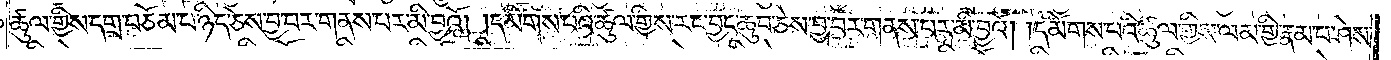ཚུལ་གྱིས་དགྲ་བཅོམ་པ་ཉིད་ཅེས་བྱ་བར་གནས་པར་མི་བྱའོ། །དམིགས་པའི་ཚུལ་གྱིས་རང་བྱང་ཆུབ་ཅེས་བྱ་བར་གནས་པར་མི་བྱའོ། །དམིགས་པའི་ཚུལ་གྱིས་ལམ་གྱི་རྣམ་པ་ཤེས་
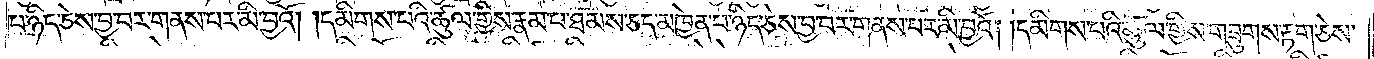པ་ཉིད་ཅེས་བྱ་བར་གནས་པར་མི་བྱའོ། །དམིགས་པའི་ཚུལ་གྱིས་རྣམ་པ་ཐམས་ཅད་མཁྱེན་པ་ཉིད་ཅེས་བྱ་བར་གནས་པར་མི་བྱའོ། །དམིགས་པའི་ཚུལ་གྱིས་གཟུགས་རྟག་ཅེས་
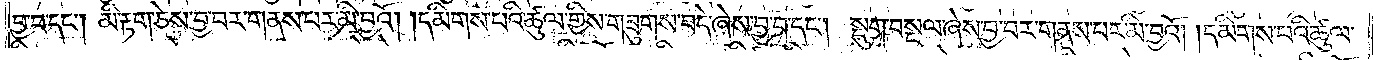བྱ་བ་དང༌། མི་རྟག་ཅེས་བྱ་བར་གནས་པར་མི་བྱའོ། །དམིགས་པའི་ཚུལ་གྱིས་གཟུགས་བདེ་ཞེས་བྱ་བ་དང༌། སྡུག་བསྔལ་ཞེས་བྱ་བར་གནས་པར་མི་བྱའོ། །དམིགས་པའི་ཚུལ་
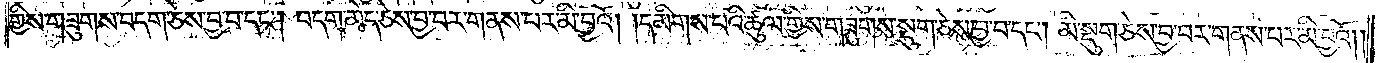གྱིས་གཟུགས་བདག་ཅེས་བྱ་བ་དང༌། བདག་མེད་ཅེས་བྱ་བར་གནས་པར་མི་བྱའོ། །དམིགས་པའི་ཚུལ་གྱིས་གཟུགས་སྡུག་ཅེས་བྱ་བ་དང༌། མི་སྡུག་ཅེས་བྱ་བར་གནས་པར་མི་བྱའོ། །
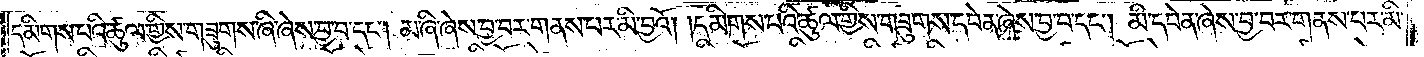དམིགས་པའི་ཚུལ་གྱིས་གཟུགས་ཞི་ཞེས་བྱ་བ་དང༌། མ་ཞི་ཞེས་བྱ་བར་གནས་པར་མི་བྱའོ། །དམིགས་པའི་ཚུལ་གྱིས་གཟུགས་དབེན་ཞེས་བྱ་བ་དང༌། མི་དབེན་ཞེས་བྱ་བར་གནས་པར་མི་
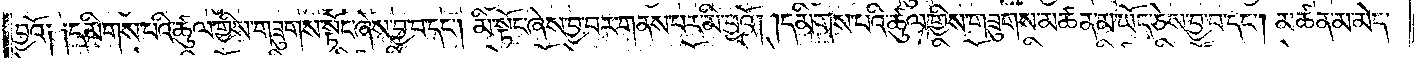བྱའོ༏ ༏དམིགས་པའི་ཚུལ་གྱིས་གཟུགས་སྟོང་ཞེས་བྱ་བ་དང༌། མི་སྟོང་ཞེས་བྱ་བར་གནས་པར་མི་བྱའོ། །དམིགས་པའི་ཚུལ་གྱིས་གཟུགས་མཚན་མ་ཡོད་ཅེས་བྱ་བ་དང༌། མཚན་མ་མེད་
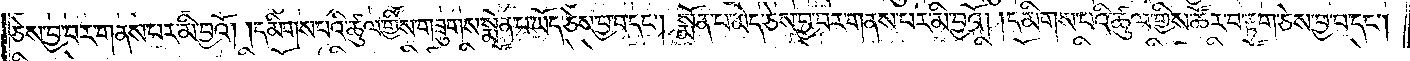ཅེས་བྱ་བར་གནས་པར་མི་བྱའོ། །དམིགས་པའི་ཚུལ་གྱིས་གཟུགས་སྨོན་པ་ཡོད་ཅེས་བྱ་བ་དང༌། སྨོན་པ་མེད་ཅེས་བྱ་བར་གནས་པར་མི་བྱའོ། །དམིགས་པའི་ཚུལ་གྱིས་ཚོར་བ་རྟག་ཅེས་བྱ་བ་དང༌།
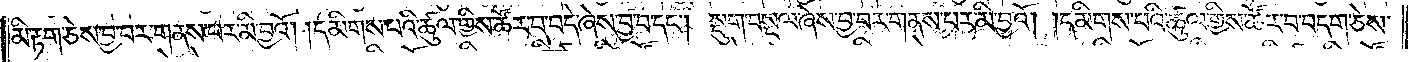མི་རྟག་ཅེས་བྱ་བར་གནས་པར་མི་བྱའོ། །དམིགས་པའི་ཚུལ་གྱིས་ཚོར་བ་བདེ་ཞེས་བྱ་བ་དང༌། སྡུག་བསྔལ་ཞེས་བྱ་བར་གནས་པར་མི་བྱའོ། །དམིགས་པའི་ཚུལ་གྱིས་ཚོར་བ་བདག་ཅེས་
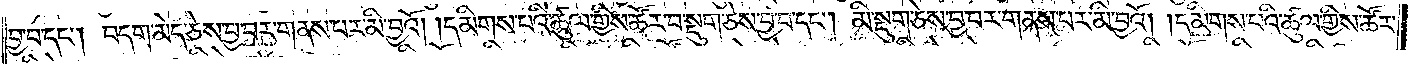བྱ་བ་དང༌། བདག་མེད་ཅེས་བྱ་བར་གནས་པར་མི་བྱའོ། །དམིགས་པའི་ཚུལ་གྱིས་ཚོར་བ་སྡུག་ཅེས་བྱ་བ་དང༌། མི་སྡུག་ཅེས་བྱ་བར་གནས་པར་མི་བྱའོ། །དམིགས་པའི་ཚུལ་གྱིས་ཚོར་
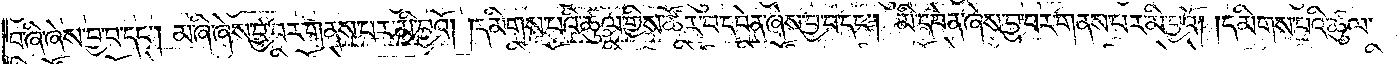བ་ཞི་ཞེས་བྱ་བ་དང༌། མ་ཞི་ཞེས་བྱ་བར་གནས་པར་མི་བྱའོ། །དམིགས་པའི་ཚུལ་གྱིས་ཚོར་བ་དབེན་ཞེས་བྱ་བ་དང༌། མི་དབེན་ཞེས་བྱ་བར་གནས་པར་མི་བྱའོ། །དམིགས་པའི་ཚུལ་
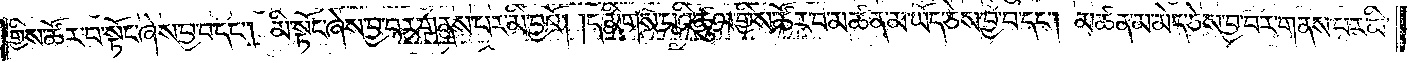གྱིས་ཚོར་བ་སྟོང་ཞེས་བྱ་བ་དང༌། མི་སྟོང་ཞེས་བྱ་བར་གནས་པར་མི་བྱའོ། །དམིགས་པའི་ཚུལ་གྱིས་ཚོར་བ་མཚན་མ་ཡོད་ཅེས་བྱ་བ་དང༌། མཚན་མ་མེད་ཅེས་བྱ་བར་གནས་པར་མི་
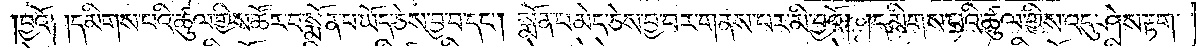བྱའོ༏ ༏དམིགས་པའི་ཚུལ་གྱིས་ཚོར་བ་སྨོན་པ་ཡོད་ཅེས་བྱ་བ་དང༌། སྨོན་པ་མེད་ཅེས་བྱ་བར་གནས་པར་མི་བྱའོ། །དམིགས་པའི་ཚུལ་གྱིས་འདུ་ཤེས་རྟག་
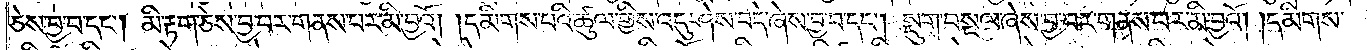ཅེས་བྱ་བ་དང༌། མི་རྟག་ཅེས་བྱ་བར་གནས་པར་མི་བྱའོ། །དམིགས་པའི་ཚུལ་གྱིས་འདུ་ཤེས་བདེ་ཞེས་བྱ་བ་དང༌། སྡུག་བསྔལ་ཞེས་བྱ་བར་གནས་པར་མི་བྱའོ། །དམིགས་
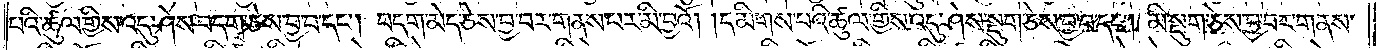པའི་ཚུལ་གྱིས་འདུ་ཤེས་བདག་ཅེས་བྱ་བ་དང༌། བདག་མེད་ཅེས་བྱ་བར་གནས་པར་མི་བྱའོ། །དམིགས་པའི་ཚུལ་གྱིས་འདུ་ཤེས་སྡུག་ཅེས་བྱ་བ་དང༌། མི་སྡུག་ཅེས་བྱ་བར་གནས་
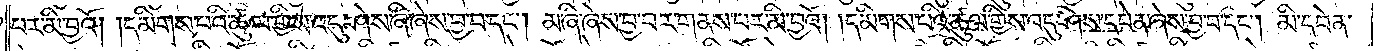པར་མི་བྱའོ། །དམིགས་པའི་ཚུལ་གྱིས་འདུ་ཤེས་ཞི་ཞེས་བྱ་བ་དང༌། མ་ཞི་ཞེས་བྱ་བར་གནས་པར་མི་བྱའོ། །དམིགས་པའི་ཚུལ་གྱིས་འདུ་ཤེས་དབེན་ཞེས་བྱ་བ་དང༌། མི་དབེན་
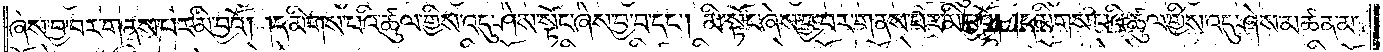ཞེས་བྱ་བར་གནས་པར་མི་བྱའོ། །དམིགས་པའི་ཚུལ་གྱིས་འདུ་ཤེས་སྟོང་ཞེས་བྱ་བ་དང༌། མི་སྟོང་ཞེས་བྱ་བར་གནས་པར་མི་བྱའོ། །དམིགས་པའི་ཚུལ་གྱིས་འདུ་ཤེས་མཚན་མ་
